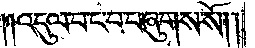འདུལ་བ་ང་པ་བཞུགས་སོ༎
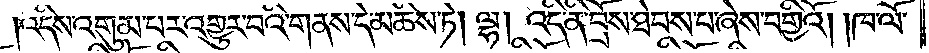འདིས་འགུམ་པར་འགྱུར་བའི་གནས་དེ་མཆིས་ཏེ། ལྷ། འདི་ནི་བྲོས་ཐེབས་པ་ཞེས་བགྱིའོ། །ཁ་ལོ་
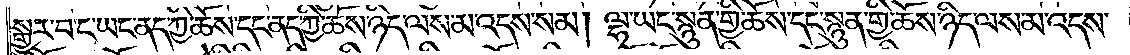སྒྱུར་བ་ང་ཡང་ནད་ཀྱི་ཆོས་དང་ནད་ཀྱི་ཆོས་ཉིད་ལས་མ་འདས་སམ། ལྷ་ཡང་སྙུན་གྱི་ཆོས་དང་སྙུན་གྱི་ཆོས་ཉིད་ལས་མ་འདས་
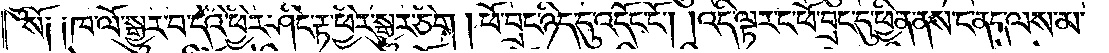སོ༑ ༑ཁ་ལོ་སྒྱུར་བ་དེའི་ཕྱིར་ཤིང་རྟ་ཕྱིར་སྒྱུར་ཅིག །ཕོ་བྲང་ཉིད་དུ་འདོང་ངོ༌། །འདི་ལྟར་ང་ཕོ་བྲང་དུ་ཕྱིན་ནས་ང་ནད་ལས་མ་
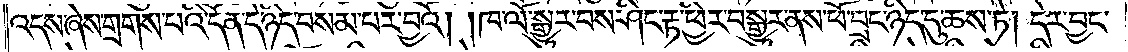འདས་ཞེས་གྲགས་པའི་དོན་དེ་ཉིད་བསམ་པར་བྱའོ། །ཁ་ལོ་སྒྱུར་བས་ཤིང་རྟ་ཕྱིར་བསྒྱུར་ནས་ཕོ་བྲང་ཉིད་དུ་ཆས་ཏེ། དེར་བྱང་
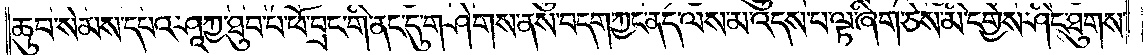ཆུབ་སེམས་དཔའ་ཤཱཀྱ་ཐུབ་པ་ཕོ་བྲང་གི་ནང་དུ་གཤེགས་ནས་བདག་ཀྱང་ནད་ལས་མ་འདས་པ་ལྟ་ཞིག་ཅེས་མི་དགྱེས་ཤིང་ཐུགས་
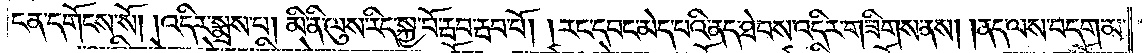ངན་དགོངས་སོ། །འདིར་སྨྲས་པ། མི་ནི་ལུས་རིད་སྐྱ་བོ་རྦབ་རྦབ་པོ། །རང་དབང་མེད་པའི་ནད་ཐེབས་འདིར་གཟིགས་ནས། །ནད་ལས་བདག་མ་
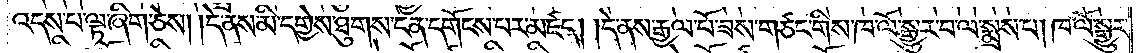འདས་པ་ལྟ་ཞིག་ཅེས། །དེ་ནས་མི་དགྱེས་ཐུགས་ངན་དགོངས་པར་མཛད། །དེ་ནས་རྒྱལ་པོ་ཟས་གཙང་གིས་ཁ་ལོ་སྒྱུར་བ་ལ་སྨྲས་པ། ཁ་ལོ་སྒྱུར་
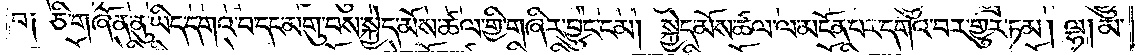བ༑ ཅི་གཞོན་ནུ་ཡིད་དགའ་བ་དང་མགུ་བས་སྐྱེད་མོས་ཚལ་གྱི་གཞིར་བྱུང་ངམ། སྐྱེད་མོས་ཚལ་ལ་མངོན་པར་དགའ་བར་གྱུར་ཏམ། ལྷ། མ་
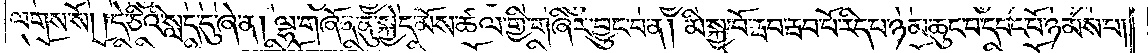ལགས་སོ། །དེ་ཅིའི་སླད་དུ་ཞེ་ན། ལྷ་གཞོན་ནུ་སྐྱེད་མོས་ཚལ་གྱི་གཞིར་བྱུང་བ་ན། མི་སྐྱ་བོ་རྦབ་རྦབ་པོ་རིད་པ་ཉམ་ཆུང་བ་དབང་པོ་ཉམས་པ།
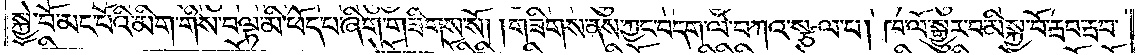སྐྱེ་བོ་མང་པོའི་མིག་གིས་བལྟ་མི་ཕོད་པ་ཞིག་གཟིགས་སོ། །གཟིགས་ནས་ཀྱང་བདག་ལ་བཀའ་སྩལ་པ། ཁ་ལོ་སྒྱུར་བ་མི་སྐྱེ་བོ་རྦབ་རྦབ་
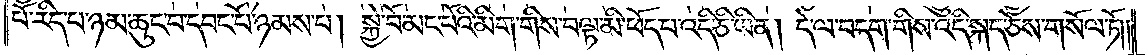པོ་རིད་པ་ཉམ་ཆུང་བ་དབང་པོ་ཉམས་པ། སྐྱེ་བོ་མང་པོའི་མིག་གིས་བལྟ་མི་ཕོད་པ་འདི་ཅི་ཡིན། དེ་ལ་བདག་གིས་འདི་སྐད་ཅེས་གསོལ་ཏོ། །
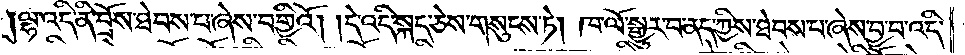ལྷ་འདི་ནི་བྲོས་ཐེབས་པ་ཞེས་བགྱིའོ། །དེ་འདི་སྐད་ཅེས་གསུངས་ཏེ། ཁ་ལོ་སྒྱུར་བ་ནད་ཀྱིས་ཐེབས་པ་ཞེས་བྱ་བ་འདི་
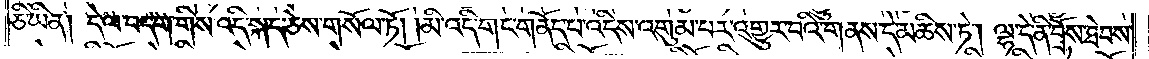ཅི་ཡིན། དེ་ལ་བདག་གིས་འདི་སྐད་ཅེས་གསོལ་ཏོ། །མི་འདི་གང་གནོད་པ་འདིས་འགུམ་པར་འགྱུར་བའི་གནས་དེ་མཆིས་ཏེ། ལྷ་དེ་ནི་བྲོས་ཐེབས་
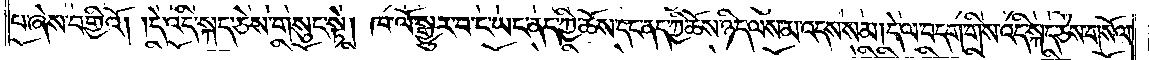པ་ཞེས་བགྱིའོ། །དེ་འདི་སྐད་ཅེས་གསུང་སྟེ། ཁ་ལོ་སྒྱུར་བ་ང་ཡང་ནད་ཀྱི་ཆོས་དང་ནད་ཀྱི་ཆོས་ཉིད་ལས་མ་འདས་སམ། དེ་ལ་བདག་གིས་འདི་སྐད་ཅེས་གསོལ་
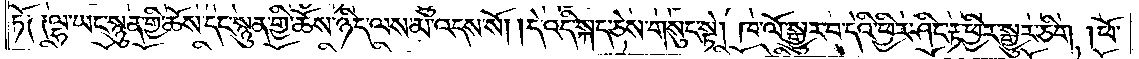ཏོ༑ ༑ལྷ་ཡང་སྙུན་གྱི་ཆོས་དང་སྙུན་གྱི་ཆོས་ཉིད་ལས་མ་འདས་སོ། །དེ་འདི་སྐད་ཅེས་གསུང་སྟེ། ཁ་ལོ་སྒྱུར་བ་དེའི་ཕྱིར་ཤིང་རྟ་ཕྱིར་སྒྱུར་ཅིག །ཕོ་
